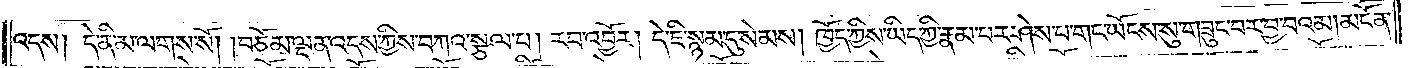འདས། དེ་ནི་མ་ལགས་སོ། །བཅོམ་ལྡན་འདས་ཀྱིས་བཀའ་སྩལ་པ། རབ་འབྱོར། དེ་ཇི་སྙམ་དུ་སེམས། ཁྱོད་ཀྱིས་ཡིད་ཀྱི་རྣམ་པར་ཤེས་པ་གང་ཡོངས་སུ་བཟུང་བར་བྱ་བའམ། མངོན་
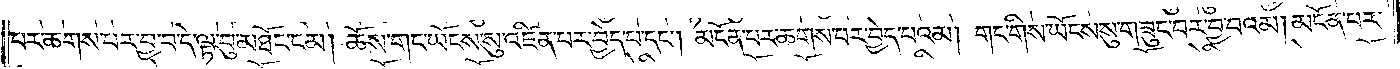པར་ཆགས་པར་བྱ་བ་དེ་ལྟ་བུ་མཐོང་ངམ། ཆོས་གང་ཡོངས་སུ་འཛིན་པར་བྱེད་པ་དང༌། མངོན་པར་ཆགས་པར་བྱེད་པའམ། གང་གིས་ཡོངས་སུ་གཟུང་བར་བྱ་བའམ། མངོན་པར་
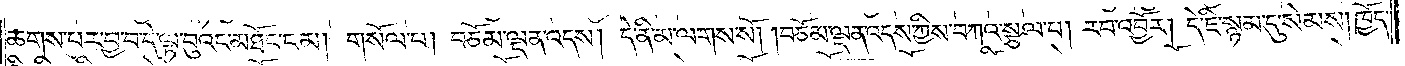ཆགས་པར་བྱ་བ་དེ་ལྟ་བུའང་མཐོང་ངམ། གསོལ་པ། བཅོམ་ལྡན་འདས། དེ་ནི་མ་ལགས་སོ། །བཅོམ་ལྡན་འདས་ཀྱིས་བཀའ་སྩལ་པ། རབ་འབྱོར། དེ་ཇི་སྙམ་དུ་སེམས། ཁྱོད་
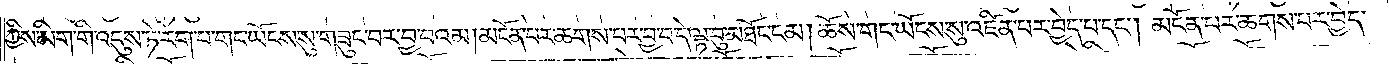ཀྱིས་མིག་གི་འདུས་ཏེ་རེག་པ་གང་ཡོངས་སུ་གཟུང་བར་བྱ་བའམ། མངོན་པར་ཆགས་པར་བྱ་བ་དེ་ལྟ་བུ་མཐོང་ངམ། ཆོས་གང་ཡོངས་སུ་འཛིན་པར་བྱེད་པ་དང༌། མངོན་པར་ཆགས་པར་བྱེད་
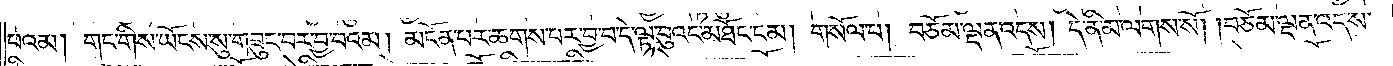པའམ། གང་གིས་ཡོངས་སུ་གཟུང་བར་བྱ་བའམ། མངོན་པར་ཆགས་པར་བྱ་བ་དེ་ལྟ་བུའང་མཐོང་ངམ། གསོལ་པ། བཅོམ་ལྡན་འདས། དེ་ནི་མ་ལགས་སོ། །བཅོམ་ལྡན་འདས་
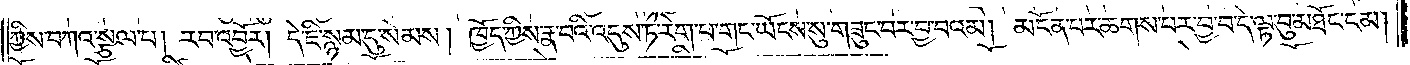ཀྱིས་བཀའ་སྩལ་པ། རབ་འབྱོར། དེ་ཇི་སྙམ་དུ་སེམས། ཁྱོད་ཀྱིས་རྣ་བའི་འདུས་ཏེ་རེག་པ་གང་ཡོངས་སུ་གཟུང་བར་བྱ་བའམ། མངོན་པར་ཆགས་པར་བྱ་བ་དེ་ལྟ་བུ་མཐོང་ངམ།
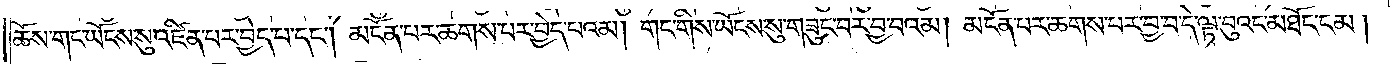ཆོས་གང་ཡོངས་སུ་འཛིན་པར་བྱེད་པ་དང༌། མངོན་པར་ཆགས་པར་བྱེད་པའམ། གང་གིས་ཡོངས་སུ་གཟུང་བར་བྱ་བའམ། མངོན་པར་ཆགས་པར་བྱ་བ་དེ་ལྟ་བུའང་མཐོང་ངམ།
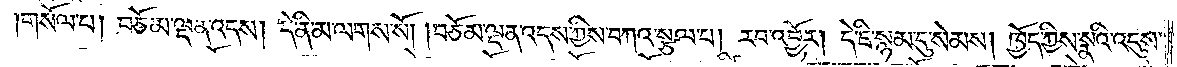གསོལ་པ། བཅོམ་ལྡན་འདས། དེ་ནི་མ་ལགས་སོ། །བཅོམ་ལྡན་འདས་ཀྱིས་བཀའ་སྩལ་པ། རབ་འབྱོར། དེ་ཇི་སྙམ་དུ་སེམས། ཁྱོད་ཀྱིས་སྣའི་འདུས་
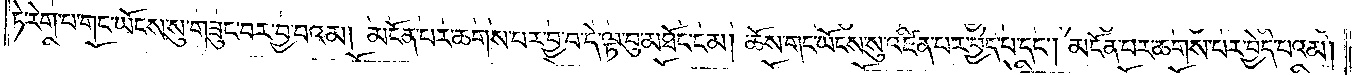ཏེ་རེག་པ་གང་ཡོངས་སུ་གཟུང་བར་བྱ་བའམ། མངོན་པར་ཆགས་པར་བྱ་བ་དེ་ལྟ་བུ་མཐོང་ངམ། ཆོས་གང་ཡོངས་སུ་འཛིན་པར་བྱེད་པ་དང༌། མངོན་པར་ཆགས་པར་བྱེད་པའམ།
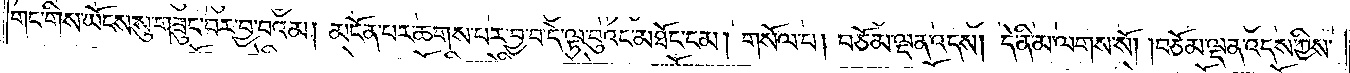གང་གིས་ཡོངས་སུ་གཟུང་བར་བྱ་བའམ། མངོན་པར་ཆགས་པར་བྱ་བ་དེ་ལྟ་བུའང་མཐོང་ངམ། གསོལ་པ། བཅོམ་ལྡན་འདས། དེ་ནི་མ་ལགས་སོ། །བཅོམ་ལྡན་འདས་ཀྱིས་
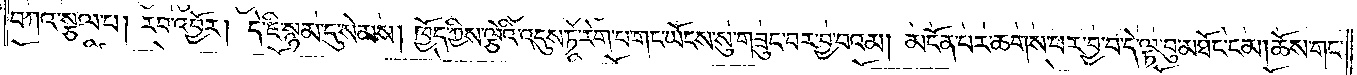བཀའ་སྩལ་པ། རབ་འབྱོར། དེ་ཇི་སྙམ་དུ་སེམས། ཁྱོད་ཀྱིས་ལྕེའི་འདུས་ཏེ་རེག་པ་གང་ཡོངས་སུ་གཟུང་བར་བྱ་བའམ། མངོན་པར་ཆགས་པར་བྱ་བ་དེ་ལྟ་བུ་མཐོང་ངམ། ཆོས་གང་
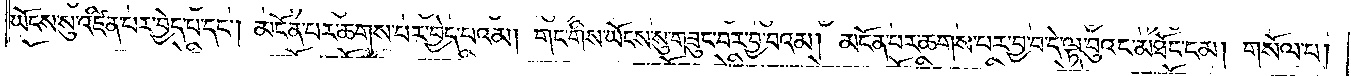ཡོངས་སུ་འཛིན་པར་བྱེད་པ་དང༌། མངོན་པར་ཆགས་པར་བྱེད་པའམ། གང་གིས་ཡོངས་སུ་གཟུང་བར་བྱ་བའམ། མངོན་པར་ཆགས་པར་བྱ་བ་དེ་ལྟ་བུའང་མཐོང་ངམ། གསོལ་པ༎
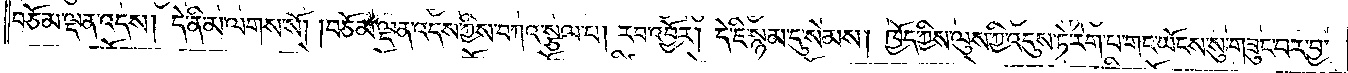བཅོམ་ལྡན་འདས། དེ་ནི་མ་ལགས་སོ། །བཅོམ་ལྡན་འདས་ཀྱིས་བཀའ་སྩལ་པ། རབ་འབྱོར། དེ་ཇི་སྙམ་དུ་སེམས། ཁྱོད་ཀྱིས་ལུས་ཀྱི་འདུས་ཏེ་རེག་པ་གང་ཡོངས་སུ་གཟུང་བར་བྱ་
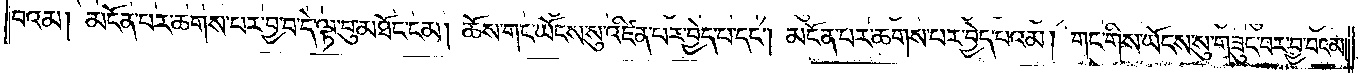བའམ། མངོན་པར་ཆགས་པར་བྱ་བ་དེ་ལྟ་བུ་མཐོང་ངམ། ཆོས་གང་ཡོངས་སུ་འཛིན་པར་བྱེད་པ་དང༌། མངོན་པར་ཆགས་པར་བྱེད་པའམ། གང་གིས་ཡོངས་སུ་གཟུང་བར་བྱ་བའམ།
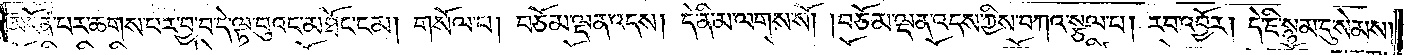མངོན་པར་ཆགས་པར་བྱ་བ་དེ་ལྟ་བུའང་མཐོང་ངམ། གསོལ་པ། བཅོམ་ལྡན་འདས། དེ་ནི་མ་ལགས་སོ། །བཅོམ་ལྡན་འདས་ཀྱིས་བཀའ་སྩལ་པ། རབ་འབྱོར། དེ་ཇི་སྙམ་དུ་སེམས།
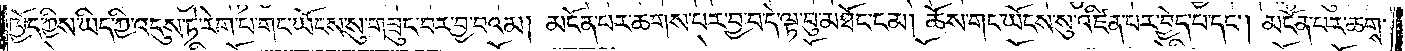ཁྱོད་ཀྱིས་ཡིད་ཀྱི་འདུས་ཏེ་རེག་པ་གང་ཡོངས་སུ་གཟུང་བར་བྱ་བའམ། མངོན་པར་ཆགས་པར་བྱ་བ་དེ་ལྟ་བུ་མཐོང་ངམ། ཆོས་གང་ཡོངས་སུ་འཛིན་པར་བྱེད་པ་དང༌། མངོན་པར་ཆགས་
